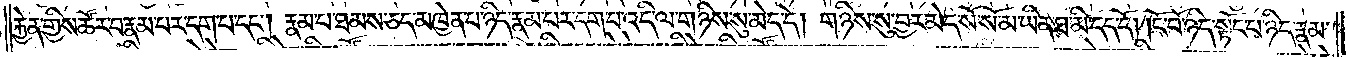རྐྱེན་གྱིས་ཚོར་བ་རྣམ་པར་དག་པ་དང༌། རྣམ་པ་ཐམས་ཅད་མཁྱེན་པ་ཉིད་རྣམ་པར་དག་པ་འདི་ལ་གཉིས་སུ་མེད་དེ། གཉིས་སུ་བྱར་མེད་སོ་སོ་མ་ཡིན་ཐ་མི་དད་དོ། །ངོ་བོ་ཉིད་སྟོང་པ་ཉིད་རྣམ་
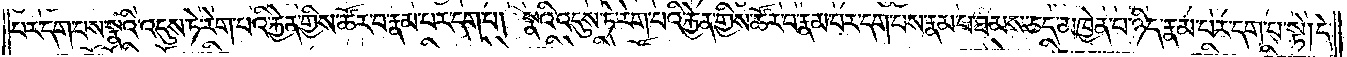པར་དག་པས་སྣའི་འདུས་ཏེ་རེག་པའི་རྐྱེན་གྱིས་ཚོར་བ་རྣམ་པར་དག་པ། སྣའི་འདུས་ཏེ་རེག་པའི་རྐྱེན་གྱིས་ཚོར་བ་རྣམ་པར་དག་པས་རྣམ་པ་ཐམས་ཅད་མཁྱེན་པ་ཉིད་རྣམ་པར་དག་པ་སྟེ། དེ་
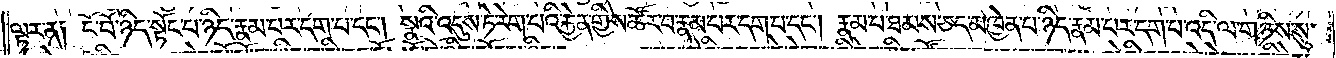ལྟར་ན༑ ངོ་བོ་ཉིད་སྟོང་པ་ཉིད་རྣམ་པར་དག་པ་དང༌། སྣའི་འདུས་ཏེ་རེག་པའི་རྐྱེན་གྱིས་ཚོར་བ་རྣམ་པར་དག་པ་དང༌། རྣམ་པ་ཐམས་ཅད་མཁྱེན་པ་ཉིད་རྣམ་པར་དག་པ་འདི་ལ་གཉིས་སུ་
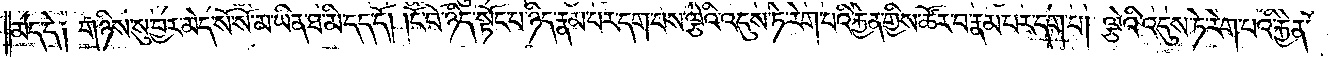མེད་དེ། གཉིས་སུ་བྱར་མེད་སོ་སོ་མ་ཡིན་ཐ་མི་དད་དོ། །ངོ་བོ་ཉིད་སྟོང་པ་ཉིད་རྣམ་པར་དག་པས་ལྕེའི་འདུས་ཏེ་རེག་པའི་རྐྱེན་གྱིས་ཚོར་བ་རྣམ་པར་དག་པ། ལྕེའི་འདུས་ཏེ་རེག་པའི་རྐྱེན་
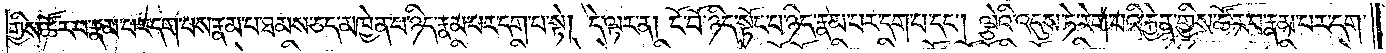གྱིས་ཚོར་བ་རྣམ་པར་དག་པས་རྣམ་པ་ཐམས་ཅད་མཁྱེན་པ་ཉིད་རྣམ་པར་དག་པ་སྟེ། དེ་ལྟར་ན། ངོ་བོ་ཉིད་སྟོང་པ་ཉིད་རྣམ་པར་དག་པ་དང༌། ལྕེའི་འདུས་ཏེ་རེག་པའི་རྐྱེན་གྱིས་ཚོར་བ་རྣམ་པར་དག་
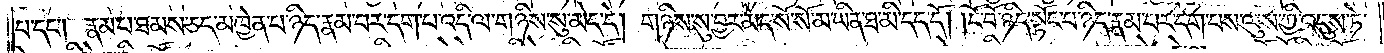པ་དང༌། རྣམ་པ་ཐམས་ཅད་མཁྱེན་པ་ཉིད་རྣམ་པར་དག་པ་འདི་ལ་གཉིས་སུ་མེད་དེ། གཉིས་སུ་བྱར་མེད་སོ་སོ་མ་ཡིན་ཐ་མི་དད་དོ། །ངོ་བོ་ཉིད་སྟོང་པ་ཉིད་རྣམ་པར་དག་པས་ལུས་ཀྱི་འདུས་ཏེ་
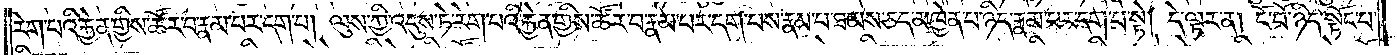རེག་པའི་རྐྱེན་གྱིས་ཚོར་བ་རྣམ་པར་དག་པ། ལུས་ཀྱི་འདུས་ཏེ་རེག་པའི་རྐྱེན་གྱིས་ཚོར་བ་རྣམ་པར་དག་པས་རྣམ་པ་ཐམས་ཅད་མཁྱེན་པ་ཉིད་རྣམ་པར་དག་པ་སྟེ། དེ་ལྟར་ན། ངོ་བོ་ཉིད་སྟོང་པ་
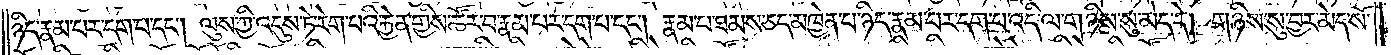ཉིད་རྣམ་པར་དག་པ་དང༌། ལུས་ཀྱི་འདུས་ཏེ་རེག་པའི་རྐྱེན་གྱིས་ཚོར་བ་རྣམ་པར་དག་པ་དང༌། རྣམ་པ་ཐམས་ཅད་མཁྱེན་པ་ཉིད་རྣམ་པར་དག་པ་འདི་ལ་གཉིས་སུ་མེད་དེ། གཉིས་སུ་བྱར་མེད་སོ་
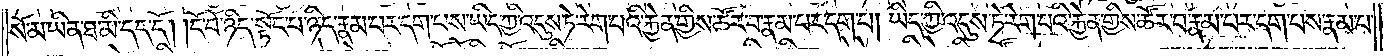སོ་མ་ཡིན་ཐ་མི་དད་དོ། །ངོ་བོ་ཉིད་སྟོང་པ་ཉིད་རྣམ་པར་དག་པས་ཡིད་ཀྱི་འདུས་ཏེ་རེག་པའི་རྐྱེན་གྱིས་ཚོར་བ་རྣམ་པར་དག་པ། ཡིད་ཀྱི་འདུས་ཏེ་རེག་པའི་རྐྱེན་གྱིས་ཚོར་བ་རྣམ་པར་དག་པས་རྣམ་པ་
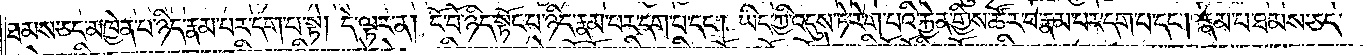ཐམས་ཅད་མཁྱེན་པ་ཉིད་རྣམ་པར་དག་པ་སྟེ། དེ་ལྟར་ན། ངོ་བོ་ཉིད་སྟོང་པ་ཉིད་རྣམ་པར་དག་པ་དང༌། ཡིད་ཀྱི་འདུས་ཏེ་རེག་པའི་རྐྱེན་གྱིས་ཚོར་བ་རྣམ་པར་དག་པ་དང༌། རྣམ་པ་ཐམས་ཅད་
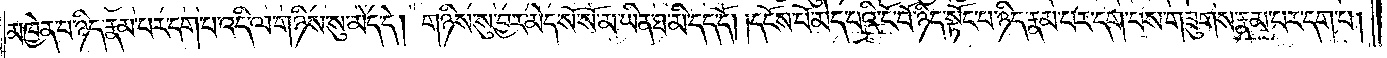མཁྱེན་པ་ཉིད་རྣམ་པར་དག་པ་འདི་ལ་གཉིས་སུ་མེད་དེ། གཉིས་སུ་བྱར་མེད་སོ་སོ་མ་ཡིན་ཐ་མི་དད་དོ། །དངོས་པོ་མེད་པའི་ངོ་བོ་ཉིད་སྟོང་པ་ཉིད་རྣམ་པར་དག་པས་གཟུགས་རྣམ་པར་དག་པ།
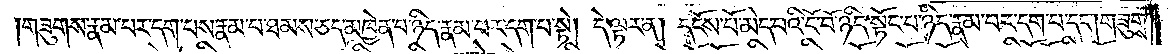གཟུགས་རྣམ་པར་དག་པས་རྣམ་པ་ཐམས་ཅད་མཁྱེན་པ་ཉིད་རྣམ་པར་དག་པ་སྟེ། དེ་ལྟར་ན། དངོས་པོ་མེད་པའི་ངོ་བོ་ཉིད་སྟོང་པ་ཉིད་རྣམ་པར་དག་པ་དང༌། གཟུགས་
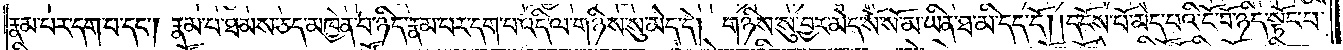རྣམ་པར་དག་པ་དང༌། རྣམ་པ་ཐམས་ཅད་མཁྱེན་པ་ཉིད་རྣམ་པར་དག་པ་འདི་ལ་གཉིས་སུ་མེད་དེ། གཉིས་སུ་བྱར་མེད་སོ་སོ་མ་ཡིན་ཐ་མི་དད་དོ། །དངོས་པོ་མེད་པའི་ངོ་བོ་ཉིད་སྟོང་པ་
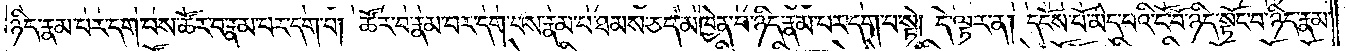ཉིད་རྣམ་པར་དག་པས་ཚོར་བ་རྣམ་པར་དག་པ། ཚོར་བ་རྣམ་པར་དག་པས་རྣམ་པ་ཐམས་ཅད་མཁྱེན་པ་ཉིད་རྣམ་པར་དག་པ་སྟེ། དེ་ལྟར་ན། དངོས་པོ་མེད་པའི་ངོ་བོ་ཉིད་སྟོང་པ་ཉིད་རྣམ་
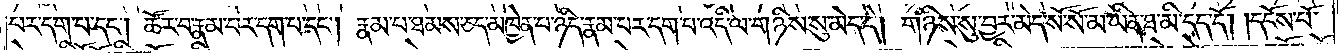པར་དག་པ་དང༌། ཚོར་བ་རྣམ་པར་དག་པ་དང༌། རྣམ་པ་ཐམས་ཅད་མཁྱེན་པ་ཉིད་རྣམ་པར་དག་པ་འདི་ལ་གཉིས་སུ་མེད་དེ། གཉིས་སུ་བྱར་མེད་སོ་སོ་མ་ཡིན་ཐ་མི་དད་དོ། །དངོས་པོ་
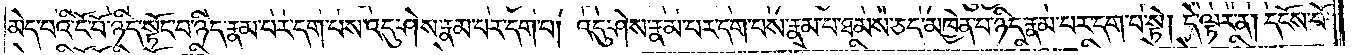མེད་པའི་ངོ་བོ་ཉིད་སྟོང་པ་ཉིད་རྣམ་པར་དག་པས་འདུ་ཤེས་རྣམ་པར་དག་པ། འདུ་ཤེས་རྣམ་པར་དག་པས་རྣམ་པ་ཐམས་ཅད་མཁྱེན་པ་ཉིད་རྣམ་པར་དག་པ་སྟེ། དེ་ལྟར་ན། དངོས་པོ་
